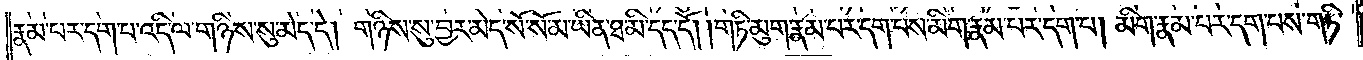རྣམ་པར་དག་པ་འདི་ལ་གཉིས་སུ་མེད་དེ། གཉིས་སུ་བྱར་མེད་སོ་སོ་མ་ཡིན་ཐ་མི་དད་དོ། །གཏི་མུག་རྣམ་པར་དག་པས་མིག་རྣམ་པར་དག་པ། མིག་རྣམ་པར་དག་པས་གཏི་
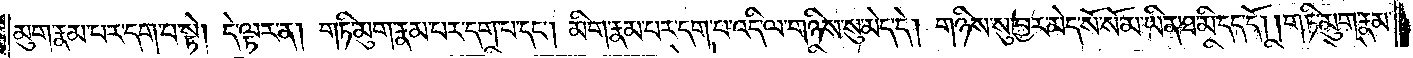མུག་རྣམ་པར་དག་པ་སྟེ། དེ་ལྟར་ན། གཏི་མུག་རྣམ་པར་དག་པ་དང༌། མིག་རྣམ་པར་དག་པ་འདི་ལ་གཉིས་སུ་མེད་དེ། གཉིས་སུ་བྱར་མེད་སོ་སོ་མ་ཡིན་ཐ་མི་དད་དོ། །གཏི་མུག་རྣམ་
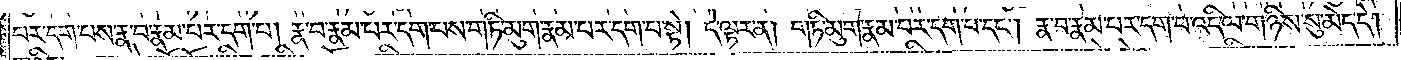པར་དག་པས་རྣ་བ་རྣམ་པར་དག་པ། རྣ་བ་རྣམ་པར་དག་པས་གཏི་མུག་རྣམ་པར་དག་པ་སྟེ། དེ་ལྟར་ན། གཏི་མུག་རྣམ་པར་དག་པ་དང༌། རྣ་བ་རྣམ་པར་དག་པ་འདི་ལ་གཉིས་སུ་མེད་དེ།
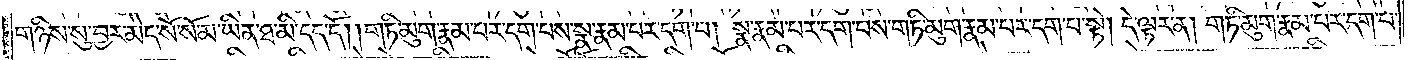གཉིས་སུ་བྱར་མེད་སོ་སོ་མ་ཡིན་ཐ་མི་དད་དོ། །གཏི་མུག་རྣམ་པར་དག་པས་སྣ་རྣམ་པར་དག་པ། སྣ་རྣམ་པར་དག་པས་གཏི་མུག་རྣམ་པར་དག་པ་སྟེ། དེ་ལྟར་ན། གཏི་མུག་རྣམ་པར་དག་པ་
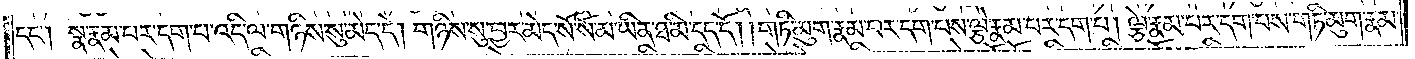དང༌། སྣ་རྣམ་པར་དག་པ་འདི་ལ་གཉིས་སུ་མེད་དེ། གཉིས་སུ་བྱར་མེད་སོ་སོ་མ་ཡིན་ཐ་མི་དད་དོ། །གཏི་མུག་རྣམ་པར་དག་པས་ལྕེ་རྣམ་པར་དག་པ། ལྕེ་རྣམ་པར་དག་པས་གཏི་མུག་རྣམ་
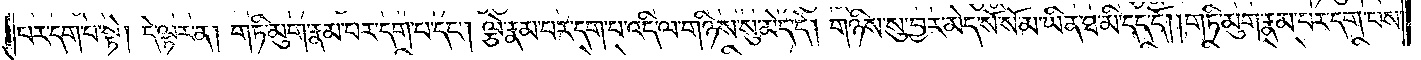པར་དག་པ་སྟེ། དེ་ལྟར་ན། གཏི་མུག་རྣམ་པར་དག་པ་དང༌། ལྕེ་རྣམ་པར་དག་པ་འདི་ལ་གཉིས་སུ་མེད་དེ། གཉིས་སུ་བྱར་མེད་སོ་སོ་མ་ཡིན་ཐ་མི་དད་དོ། །གཏི་མུག་རྣམ་པར་དག་པས་
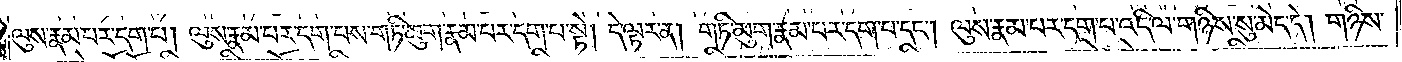ལུས་རྣམ་པར་དག་པ། ལུས་རྣམ་པར་དག་པས་གཏི་མུག་རྣམ་པར་དག་པ་སྟེ། དེ་ལྟར་ན། གཏི་མུག་རྣམ་པར་དག་པ་དང༌། ལུས་རྣམ་པར་དག་པ་འདི་ལ་གཉིས་སུ་མེད་དེ། གཉིས་
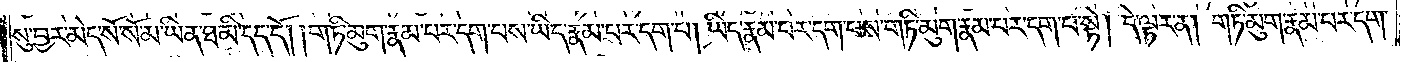སུ་བྱར་མེད་སོ་སོ་མ་ཡིན་ཐ་མི་དད་དོ། །གཏི་མུག་རྣམ་པར་དག་པས་ཡིད་རྣམ་པར་དག་པ། ཡིད་རྣམ་པར་དག་པས་གཏི་མུག་རྣམ་པར་དག་པ་སྟེ། དེ་ལྟར་ན། གཏི་མུག་རྣམ་པར་དག་
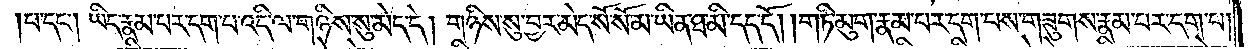པ་དང༌། ཡིད་རྣམ་པར་དག་པ་འདི་ལ་གཉིས་སུ་བྱར་མེད་དེ། གཉིས་སུ་བྱར་མེད་སོ་སོ་མ་ཡིན་ཐ་མི་དད་དོ། །གཏི་མུག་རྣམ་པར་དག་པས་གཟུགས་རྣམ་པར་དག་པ།
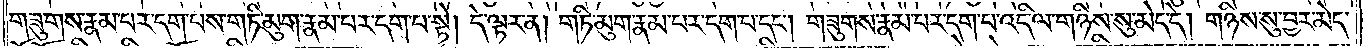གཟུགས་རྣམ་པར་དག་པས་གཏི་མུག་རྣམ་པར་དག་པ་སྟེ། དེ་ལྟར་ན། གཏི་མུག་རྣམ་པར་དག་པ་དང༌། གཟུགས་རྣམ་པར་དག་པ་འདི་ལ་གཉིས་སུ་མེད་དེ། གཉིས་སུ་བྱར་མེད་
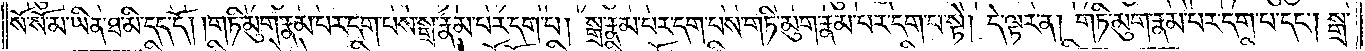སོ་སོ་མ་ཡིན་ཐ་མི་དད་དོ། །གཏི་མུག་རྣམ་པར་དག་པས་སྒྲ་རྣམ་པར་དག་པ། སྒྲ་རྣམ་པར་དག་པས་གཏི་མུག་རྣམ་པར་དག་པ་སྟེ། དེ་ལྟར་ན། གཏི་མུག་རྣམ་པར་དག་པ་དང༌། སྒྲ་
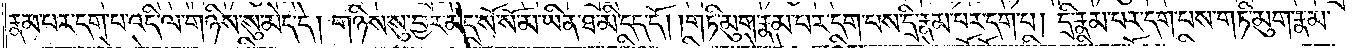རྣམ་པར་དག་པ་འདི་ལ་གཉིས་སུ་མེད་དེ། གཉིས་སུ་བྱར་མེད་སོ་སོ་མ་ཡིན་ཐ་མི་དད་དོ། །གཏི་མུག་རྣམ་པར་དག་པས་དྲི་རྣམ་པར་དག་པ། དྲི་རྣམ་པར་དག་པས་གཏི་མུག་རྣམ་
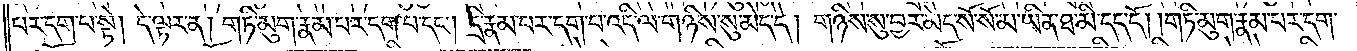པར་དག་པ་སྟེ། དེ་ལྟར་ན། གཏི་མུག་རྣམ་པར་དག་པ་དང༌། དྲི་རྣམ་པར་དག་པ་འདི་ལ་གཉིས་སུ་མེད་དེ། གཉིས་སུ་བྱར་མེད་སོ་སོ་མ་ཡིན་ཐ་མི་དད་དོ། །གཏི་མུག་རྣམ་པར་དག་
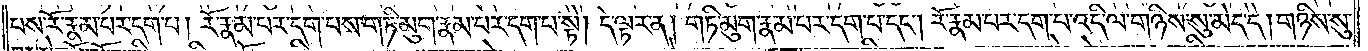པས་རོ་རྣམ་པར་དག་པ། རོ་རྣམ་པར་དག་པས་གཏི་མུག་རྣམ་པར་དག་པ་སྟེ། དེ་ལྟར་ན། གཏི་མུག་རྣམ་པར་དག་པ་དང༌། རོ་རྣམ་པར་དག་པ་འདི་ལ་གཉིས་སུ་མེད་དེ། གཉིས་སུ་
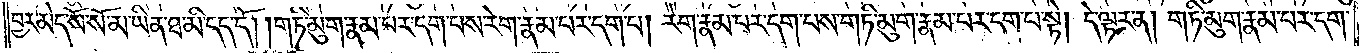བྱར་མེད་སོ་སོ་མ་ཡིན་ཐ་མི་དད་དོ། །གཏི་མུག་རྣམ་པར་དག་པས་རེག་རྣམ་པར་དག་པ། རེག་རྣམ་པར་དག་པས་གཏི་མུག་རྣམ་པར་དག་པ་སྟེ། དེ་ལྟར་ན། གཏི་མུག་རྣམ་པར་དག་
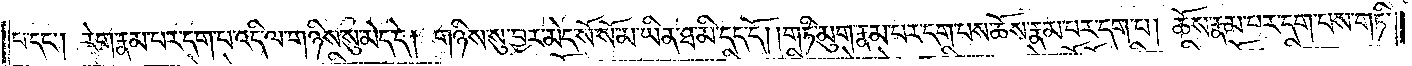པ་དང༌། རེག་རྣམ་པར་དག་པ་འདི་ལ་གཉིས་སུ་མེད་དེ། གཉིས་སུ་བྱར་མེད་སོ་སོ་མ་ཡིན་ཐ་མི་དད་དོ། །གཏི་མུག་རྣམ་པར་དག་པས་ཆོས་རྣམ་པར་དག་པ། ཆོས་རྣམ་པར་དག་པས་གཏི་
